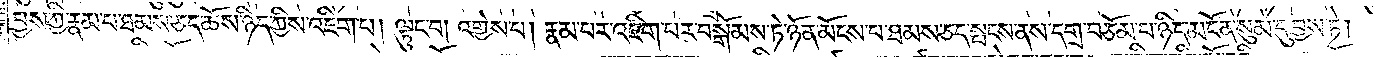བྱས་ཀྱི་རྣམ་པ་ཐམས་ཅད་ཆོས་ཉིད་ཀྱིས་འཇིག་པ། ལྟུང་བ། འགྱེས་པ། རྣམ་པར་འཇིག་པར་བསྒོམས་ཏེ་ཉོན་མོངས་པ་ཐམས་ཅད་སྤངས་ནས་དགྲ་བཅོམ་པ་ཉིད་མངོན་སུམ་དུ་བྱས་ཏེ།
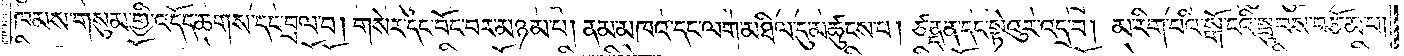ཁམས་གསུམ་གྱི་འདོད་ཆགས་དང་བྲལ་བ། གསེར་དང་བོང་བར་མཉམ་པ། ནམ་མཁའ་དང་ལག་མཐིལ་དུ་མཚུངས་པ། ཙནྡན་དང་སྟེའུར་འདྲ་བ། མ་རིག་པའི་སྒོ་ངའི་སྦུབས་བཅོམ་པ།
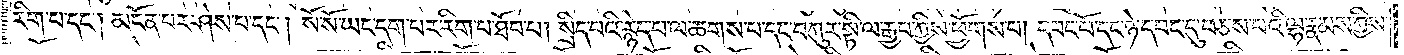རིག་པ་དང༌། མངོན་པར་ཤེས་པ་དང༌། སོ་སོ་ཡང་དག་པར་རིག་པ་ཐོབ་པ། སྲིད་པའི་རྙེད་པ་ལ་ཆགས་པ་དང་བཀུར་སྟི་ལ་རྒྱབ་ཀྱིས་ཕྱོགས་པ། དབང་པོ་དང་ཉེ་དབང་དུ་བཅས་པའི་ལྷ་རྣམས་ཀྱིས་
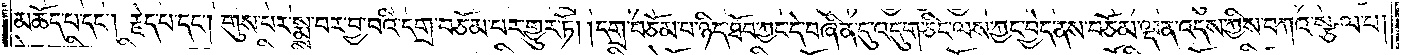མཆོད་པ་དང༌། རྗེད་པ་དང༌། གུས་པར་སྨྲ་བར་བྱ་བའི་དགྲ་བཅོམ་པར་གྱུར་ཏོ། །དགྲ་བཅོམ་པ་ཉིད་ཐོབ་ཀྱང་དེ་བཞིན་དུ་འདུག་ཅིང་ལས་ཀྱང་བྱེད་ནས་བཅོམ་ལྡན་འདས་ཀྱིས་བཀའ་སྩལ་པ།
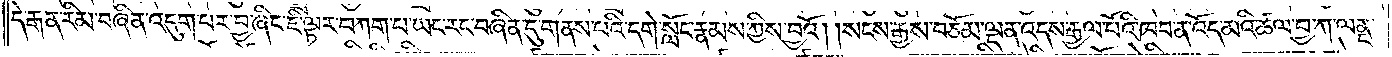དེ་རྒན་རིམ་བཞིན་འདུག་པར་བྱ་ཞིང་ཇི་ལྟར་བཀག་པ་ཡང་རང་བཞིན་དུ་གནས་པའི་དགེ་སློང་རྣམས་ཀྱིས་བྱའོ། །སངས་རྒྱས་བཅོམ་ལྡན་འདས་རྒྱལ་པོའི་ཁབ་ན་འོད་མའི་ཚལ་བྱ་ཀ་ལནྡ་
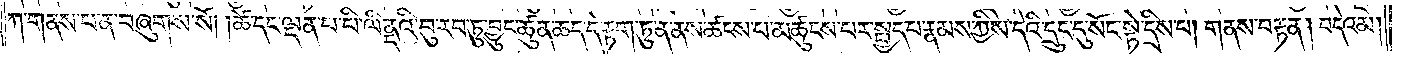ཀ་གནས་པ་ན་བཞུགས་སོ། །ཚེ་དང་ལྡན་པ་པི་ལིནདའི་བུ་རབ་ཏུ་བྱུང་ཚུན་ཆད་དེ་རྟག་ཏུ་ན་ནས་ཚངས་པ་མཚུངས་པར་སྤྱད་པ་རྣམས་ཀྱིས་དེའི་དྲུང་དུ་སོང་སྟེ་དྲིས་པ། གནས་བརྟན། བདེའམ།
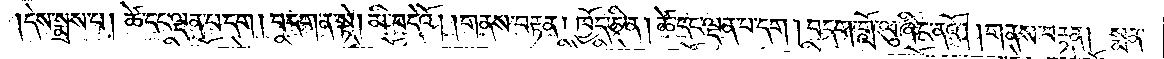དེས་སྨྲས་པ། ཚེ་དང་ལྡན་པ་དག །བདག་ན་སྟེ། མི་བདེའོ། །གནས་བརྟན། ཁྱོད་ཅི་ན། ཚེ་དང་ལྡན་པ་དག །བདག་གློ་ལུ་ཞིང་ནའོ། །གནས་བརྟན། སྨན་
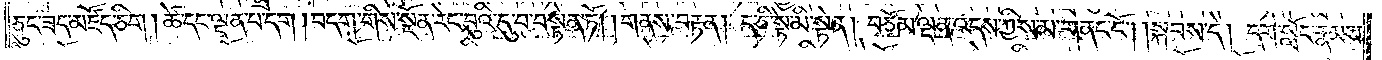ཅུང་ཟད་མཛོད་ཅིག །ཚེ་དང་ལྡན་པ་དག །བདག་གིས་སྔོན་རེང་བུའི་དུ་བ་བསྟེན་ཏོ། །གནས་བརྟན། ད་ཅི་སྟེ་མི་སྟེན། བཅོམ་ལྡན་འདས་ཀྱིས་མ་གནང་ངོ༌། །སྐབས་དེ། དགེ་སློང་རྣམས་
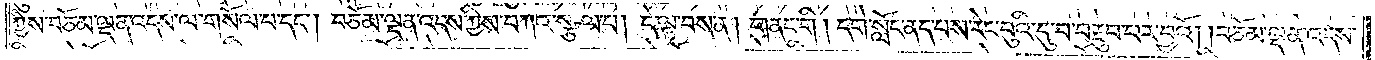ཀྱིས་བཅོམ་ལྡན་འདས་ལ་གསོལ་པ་དང༌། བཅོམ་ལྡན་འདས་ཀྱིས་བཀའ་སྩལ་པ། དེ་ལྟ་བས་ན། གནང་གི །དགེ་སློང་ནད་པས་རེང་བུའི་དུ་བ་བརྔུབ་པར་བྱའོ། །བཅོམ་ལྡན་འདས་
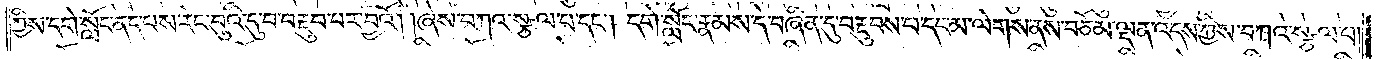ཀྱིས་དགེ་སློང་ནད་པས་རེང་བུའི་དུ་བ་བརྔུབ་པར་བྱའོ། །ཞེས་བཀའ་སྩལ་པ་དང༌། དགེ་སློང་རྣམས་དེ་བཞིན་དུ་བརྔུབས་པ་དང་མ་ལེགས་ནས་བཅོམ་ལྡན་འདས་ཀྱིས་བཀའ་སྩལ་པ།
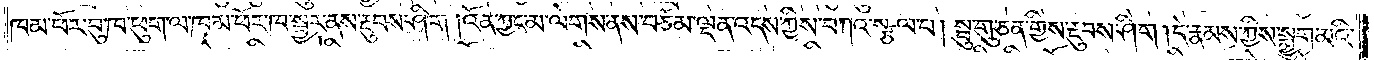ཁམ་ཕོར་བུ་ཁ་ཕུག་ལ་ཁམ་ཕོར་ཁ་སྦྱར་ནས་རྔུབས་ཤིག །འོན་ཀྱང་མ་ལེགས་ནས་བཅོམ་ལྡན་འདས་ཀྱིས་བཀའ་སྩལ་པ། སྦུ་གུ་ཅན་གྱིས་རྔུབས་ཤིག །དེ་རྣམས་ཀྱིས་སྨྱུག་མའི་
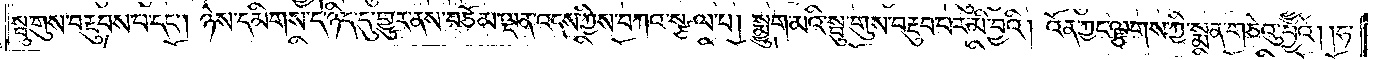སྦུ་གུས་བརྔུབས་པ་དང༌། ཉེས་དམིགས་དེ་ཉིད་དུ་གྱུར་ནས་བཅོམ་ལྡན་འདས་ཀྱིས་བཀའ་སྩལ་པ། སྨྱུག་མའི་སྦུ་གུས་བརྔུབ་པར་མི་བྱའི། འོན་ཀྱང་ལྕགས་ཀྱི་སྨན་གཅེའུ་བྱའོ། །ཧ་
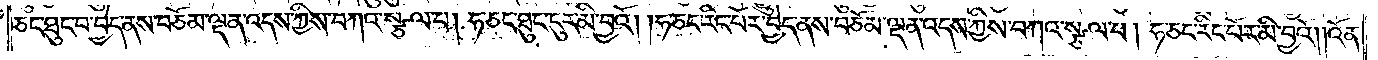ཅང་ཐུང་བ་བྱེད་ནས་བཅོམ་ལྡན་འདས་ཀྱིས་བཀའ་སྩལ་པ། ཧ་ཅང་ཐུང་ངུར་མི་བྱའོ། །ཧ་ཅང་རིང་པོར་བྱེད་ནས་བཅོམ་ལྡན་འདས་ཀྱིས་བཀའ་སྩལ་པ། ཧ་ཅང་རིང་པོར་མི་བྱའོ། །འོན་
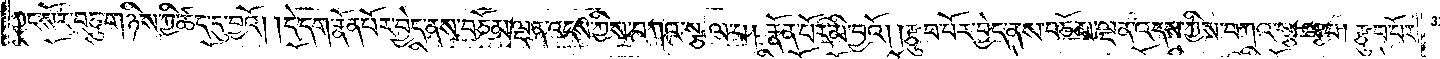ཀྱང་སོར་བཅུ་གཉིས་ཀྱི་ཚད་དུ་བྱའོ། །དེ་དག་རྣོན་པོར་བྱེད་ནས་བཅོམ་ལྡན་འདས་ཀྱིས་བཀའ་སྩལ་པ། རྣོན་པོར་མི་བྱའོ། །རྩུབ་པོར་བྱེད་ནས་བཅོམ་ལྡན་འདས་ཀྱིས་བཀའ་སྩལ་པ། རྩུབ་པོར་
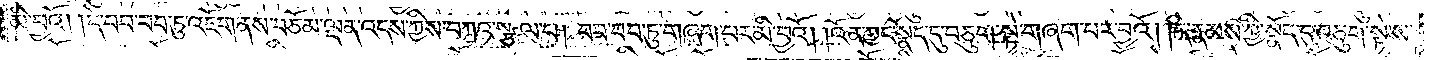མི་བྱའོ། །དེ་བབ་བབ་ཏུ་འཇོག་ནས་བཅོམ་ལྡན་འདས་ཀྱིས་བཀའ་སྩལ་པ། བབ་བབ་ཏུ་གཞག་པར་མི་བྱའོ། །འོན་ཀྱང་སྣོད་དུ་བཅུག་སྟེ་གཞག་པར་བྱའོ། །དེ་རྣམས་ཀྱི་སྣོད་དུ་བཅུག་སྟེ་ས་
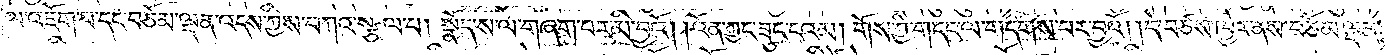ལ་འཇོག་པ་དང་བཅོམ་ལྡན་འདས་ཀྱིས་བཀའ་སྩལ་པ། སྣོད་ས་ལ་གཞག་པར་མི་བྱའོ། །འོན་ཀྱང་ཟུང་ངའམ། གོས་ཀྱི་གདང་ལ་གདགས་པར་བྱའོ། །དེ་བཙས་ཁྱེར་ནས་བཅོམ་ལྡན་
